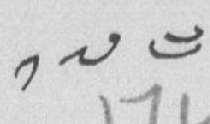༡༧༤
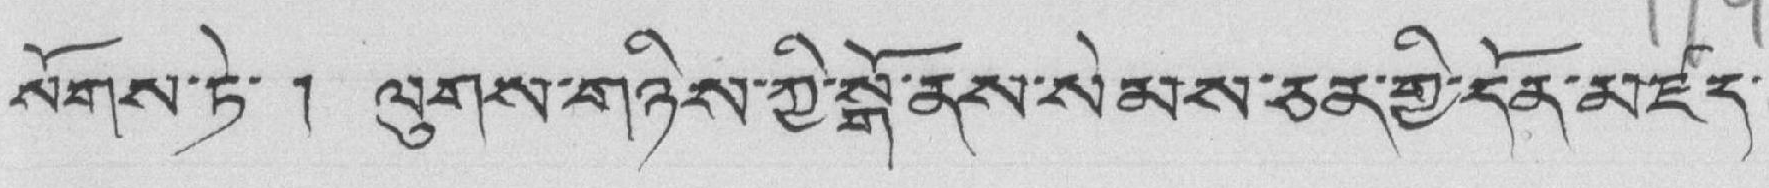སོགས་ཏེ་ ། ལུགས་གཉིས་ཀྱི་སྒོ་ནས་སེམས་ཅན་གྱི་དོན་མཛད་
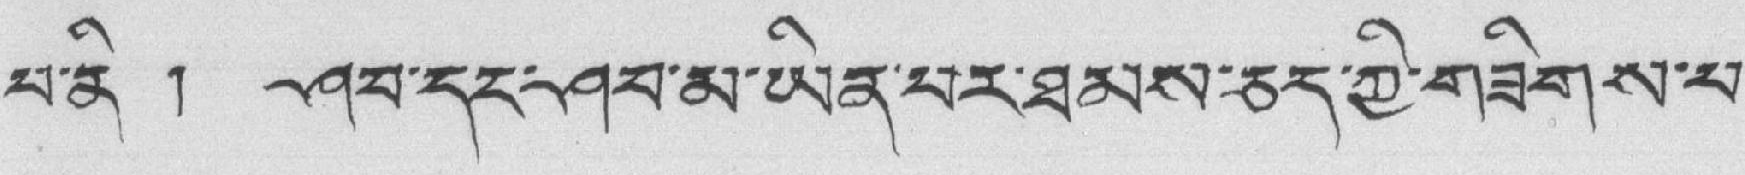པ་ནི ། ཤབ་དང་ཤབ་མ་ཡིན་པར་ཐམས་ཅད་ཀྱི་གཟིགས་པ་
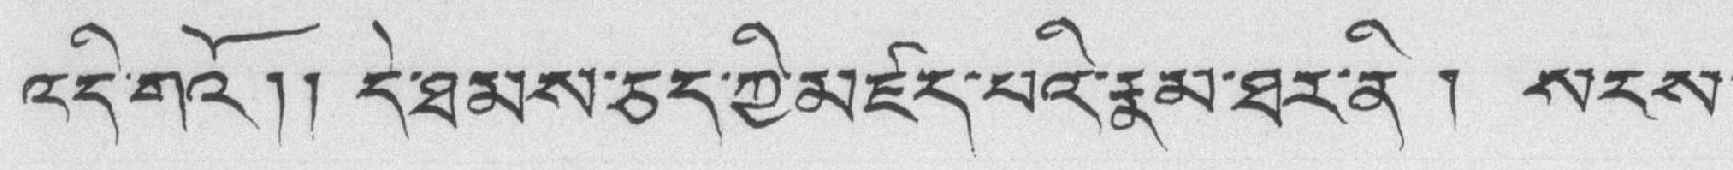འདི་གའོ།། དེ་ཐམས་ཅད་ཀྱི་མཛད་པའི་རྣམ་ཐར་ནི ། སངས་
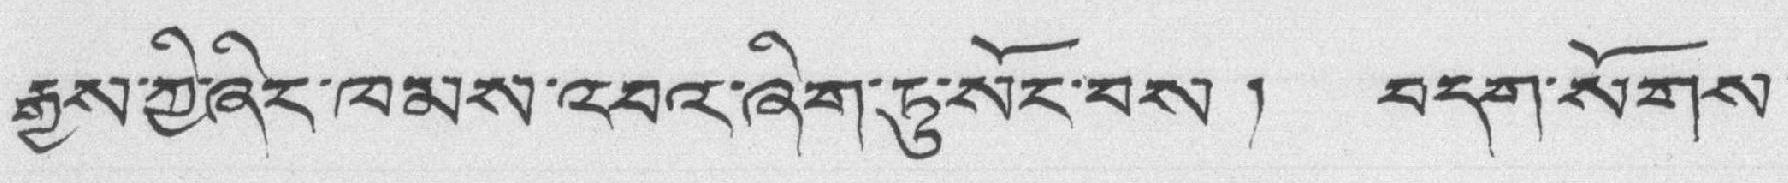རྒྱས་ཀྱི་ཞིང་ཁམས་འབའ་ཞིག་ཏུ་སང་བས། བདག་སོགས་
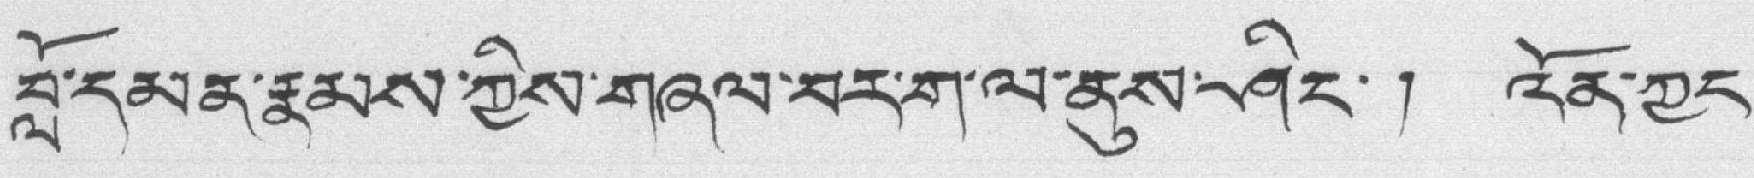བློ་དམན་རྣམས་ཀྱིས་གཞལ་བར་ག་ལ་ནུས་ཤིང་། འོན་ཀྱང་
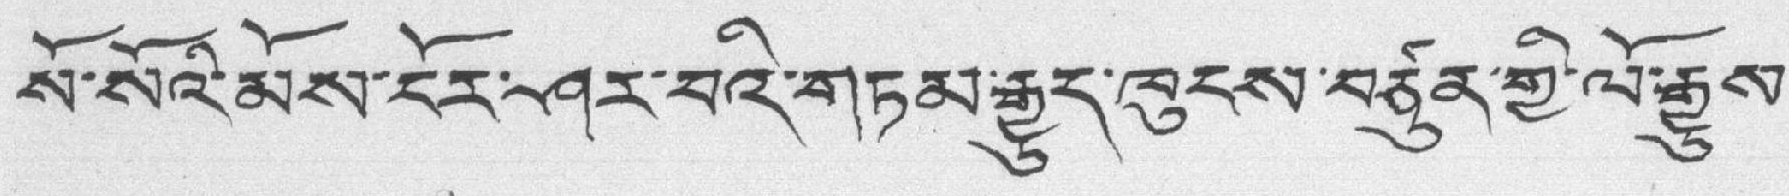སོ་སོའི་མོས་ངོར་ཤར་བའི་གཏམ་རྒྱུད་ཁུངས་བཙུན་གྱི་ལོ་རྒྱུས་
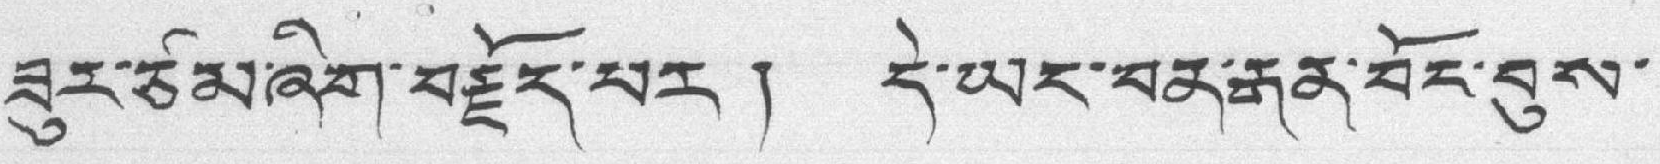ཟུར་ཙམ་ཞིག་བརྗོད་པར། དེ་ཡང་བན་རྒན་བོང་བུས་
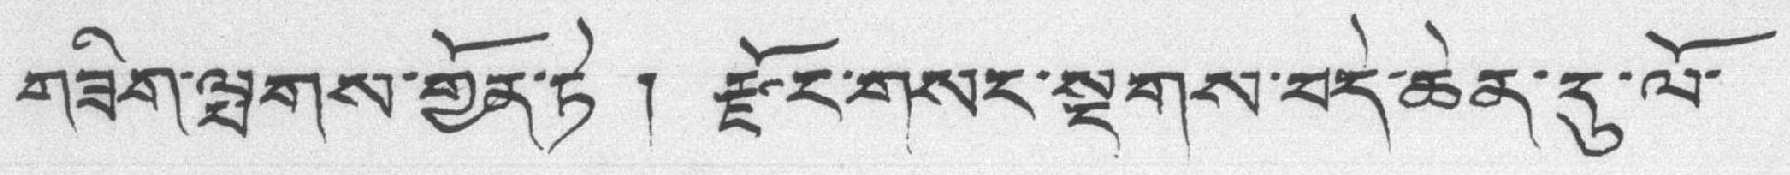གཟིག་ལྤགས་གྱོན་ཏེ ། རྗོང་གསར་སྔགས་བདེ་ཆེན་དུ་ལོ་
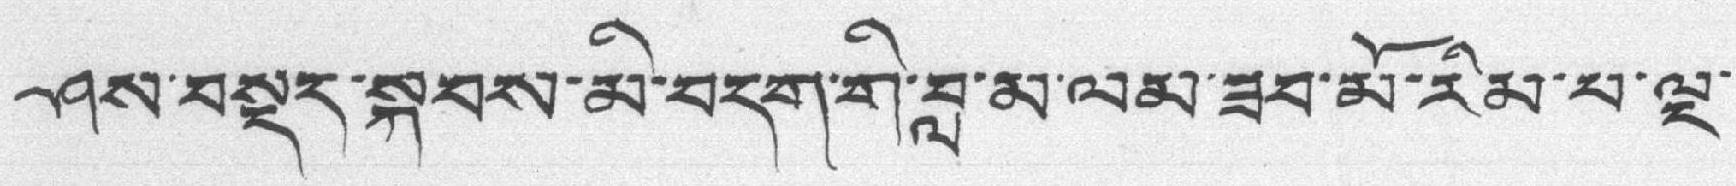ཤས་བསྡད་སྐབས་མི་བདག་གི་བླ་མ་ལམ་ཟབ་མོ་རིམ་པ་ལྔ་
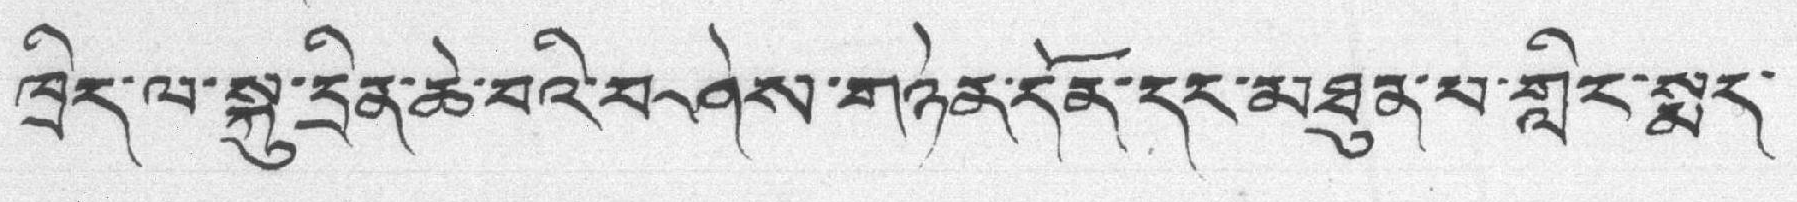ཁྲིད་ལ་སྐུ་དྲིན་ཆེ་བའི་བ་ཤེས་གཉེན་དོན་དང་མཐུན་པ་གླིང་སྨད་
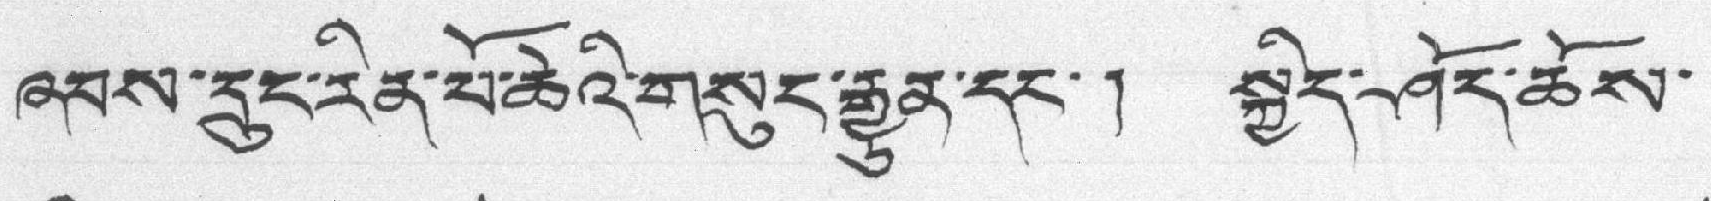ཞབས་དྲུང་རིན་པོ་ཆེའི་གསུང་རྒྱུན་དང་། སྐྱིད་ཤོད་ཆོས་
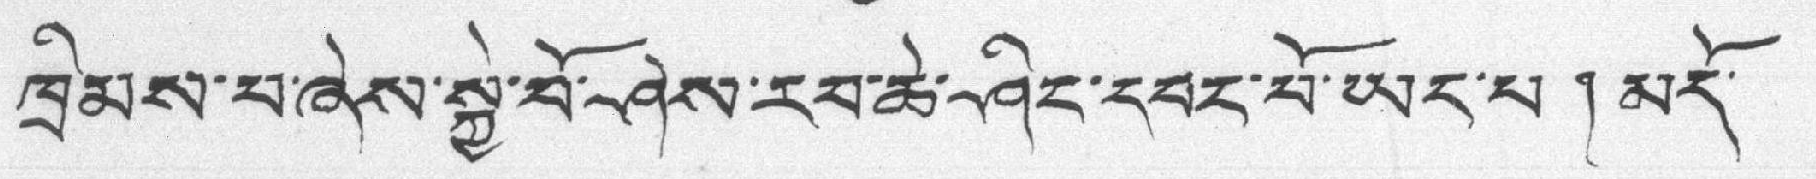ཁྲིམས་པ་ཞེས་སྐྱེ་བོ་ཤེས་རབ་ཆེ་ཤིང་དབང་པོ་ཡོད་པ། མདོ་
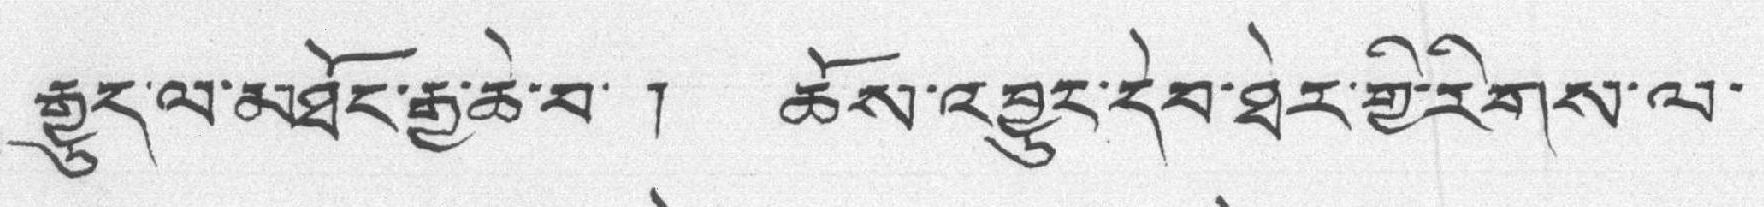རྒྱུད་ལ་མཐོང་རྒྱ་ཆེ་བ་ ། ཆོས་འབྱུང་དེབ་ཐེར་གྱི་རིགས་ལ་
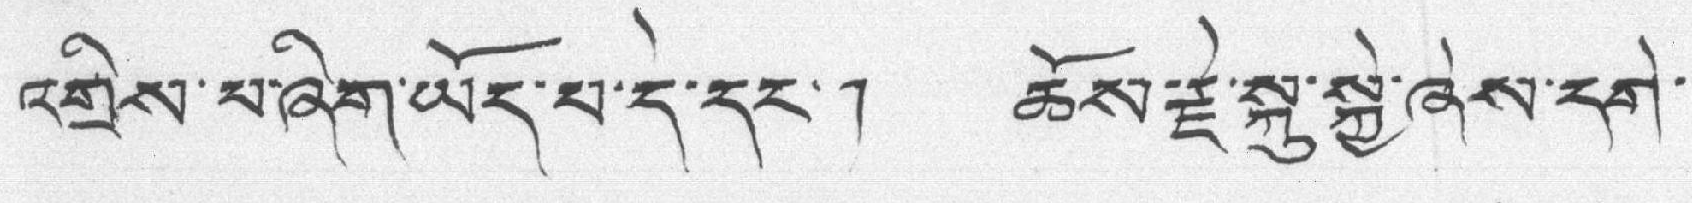འགྲིས་པ་ཞིག་ཡོད་པ་དེ་དང་། ཆོས་རྗེ་སྐུ་སྐྱེ་ཞེས་དགེ་
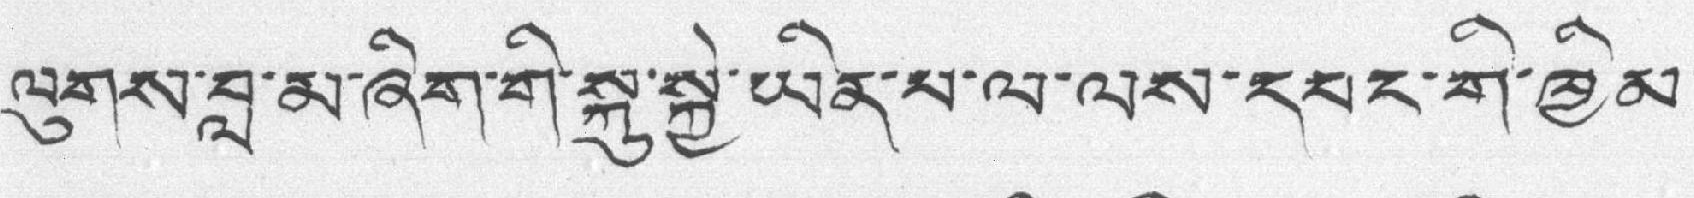ལུགས་བླ་མ་ཞིག་གི་སྐུ་སྐྱེ་ཡིན་པ་ལ་ལས་དཔང་གི་ཁྱིམ་
